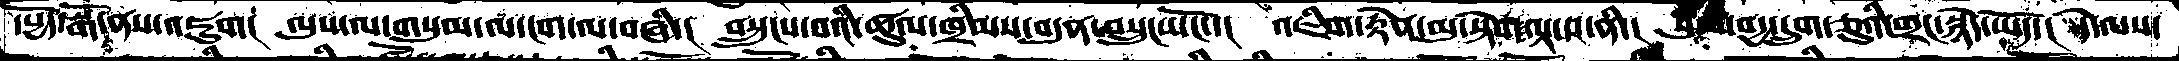དཔྱོད་སྒོ་ནས་འཇུག།  ལུས་ལ་གསུམ་ལ་ངག་ལ་བཞི་།  བསྲུངས་བའི་ཚུལ་ཁྲིམས་བདུན་བསྲུང་སངོ་་།  འཇིག་རྟེན་མུ་སྟེག་ལྟ་བ་ནི་།  སུམ་བདྱ་དྲུག་ཅུའི་གྲང་སྙེད་ཡོད་།  དེ་ལས་
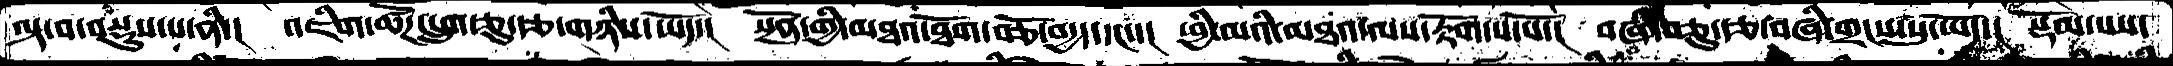ལྟ་བ་བསྡུས་པ་ནི་།  འཇིག་ཚོཌ་དྲུག་ཅུ་རྩ་གཉིས་ཡོད་།  སྔོན་གྱི་མཐའ་ཐོག་བཅོ་བདྱད་དང་་།  ཕྱི་མའི་མཐའ་ལས་རྟོག་པ་པོ་།  བཞི་བཅུ་རྩ་བཞི་གྲངས་སུ་ཡོད་།  སྡོམ་པས་
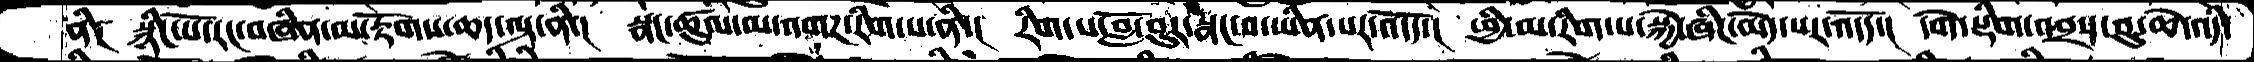ནི།  སྙིང་པོ་རང་བཞིན་མ་རྟོགས་ཆད་ལྟ་ནི་།  སྣང་ཚུལ་མ་འགཌ་རིག་པ་ནི་།  རིག་པ་བློ་བུར་སྣང་བ་ཡིན་པར་འདོད་།  ཕྱི་མ་རིག་པ་སྐྱེ་ཞིང་མེད་པར་འདོད་།  དགེ་སྡུག་འབྲས་བུ་ཆེ་འདི་
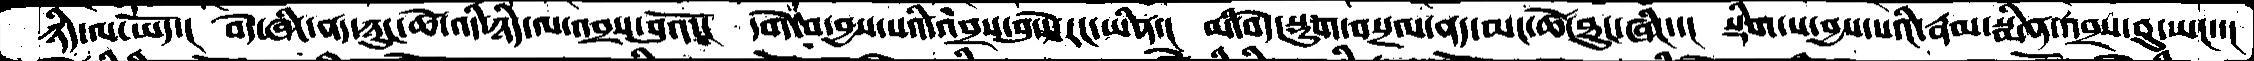ཉིད་ལ་ཡོད་།  བདེ་ཞིང་ནད་ཉུང་ཚེ་འདི་ཉིད་ལ་འབྲས་བུའོ་།  དགེ་བ་བྱས་པའི་འབྲས་བུ་དེ་རང་ཡིན་།  མི་བདེ་སྡུག་བསྔལ་ནད་མང་ཚེ་ཐུངཞིང་་།  སྡིག་པ་བྱས་པའི་རྣམ་སྨིན་འབྲས་བུ་ཡང་་།
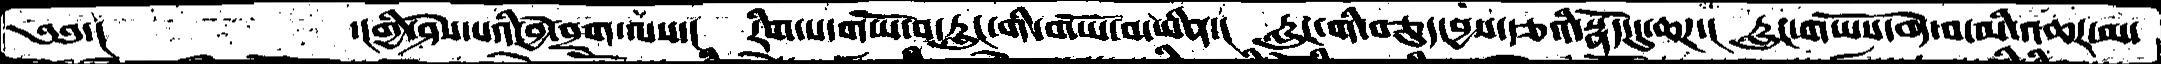༄༅་།      ་།གྱི་ཤེས་པའི་བྱེ་བྲག་ལས་།  རིག་པ་གཡོ་བ་རླུང་གི་གཡོ་བ་ཡིན་།  རླུང་གི་བཅུད་བྱས་རྩའི་སྣོད་དུ་ཆཌ་།  རླུང་གཡོས་བདེ་བ་མི་འཆར་མ་
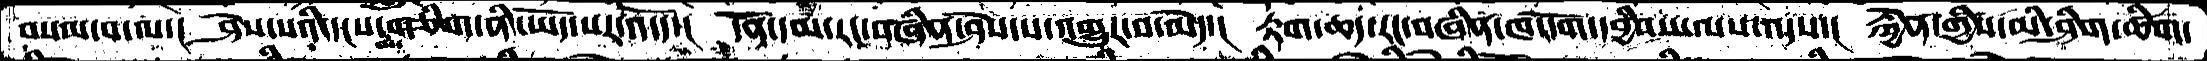བསལ་བ་ལ་།  ཤེས་པའི་དངས་མ་གཅིག་ནི་ཡོད་པར་འདོད་།  དོན་དམ་རང་བཞིན་ཤེས་པ་འགྱུར་བ་མེད་།  རྟག་ཆད་རང་བཞིན་ཁ་དོག་དབྱིབས་ལས་འདས་།  རྐྱེན་གྱིས་མི་ཤིག་ཚིག་
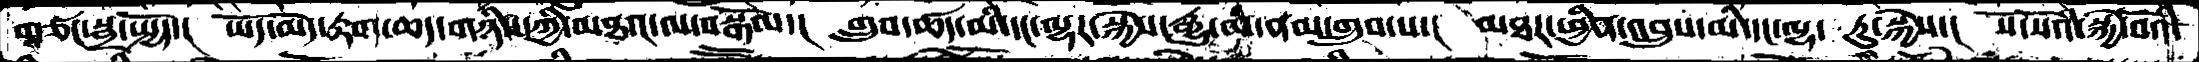གཙང་སྦྲ་སྤྱོད་།  ཡོད་མེད་རྟག་ཆད་གཉིས་ཀྱི་མཐའ་ལ་བསྒོམ་།  གྲུབ་ཚད་མི་དང་ལྷར་སྐྱེས་རྒྱུ་མ་ནམ་གྲུབ་པ་།  མཐར་ཕྱིན་འབྲུས་མི་དང་ལྷ་ རུ་སྐྱེས་།  སོ་སོའི་སྐྱེ་བོའི་
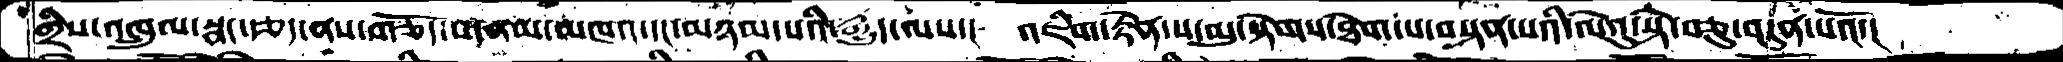གྲིས་འཁྲུལ་སྣང་རྩད་ནས་གཅོད་པ་ནམ་མཁའ་དང་མཉམ་པའི་རྒྱུད་ལས་།  འཇིག་རྟེན་པ་མུ་སྟེགས་ཐེག་པ་བསྟན་པའི་ལེའུ་སྟེ་བཅུ་བདུན་པའོ་།
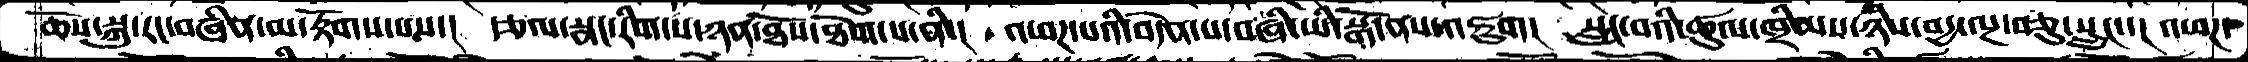ཆོས་སྐུ་རང་བཞིན་མ་རྟོགས་པས་།  རྩལ་སྣང་རིག་པ་ཉན་ཐོས་ཐེག་པ་ནི་།  འཕཌ་པའི་བདེན་པ་བཞི་ཡི་སྒོ་ནས་འཇུག།  སྲུང་བའི་ཚུལ་ཁྲིམས་ཉིས་བདྱ་ལྔ་བཅུ་སྲུང་་།  འཕཌ་
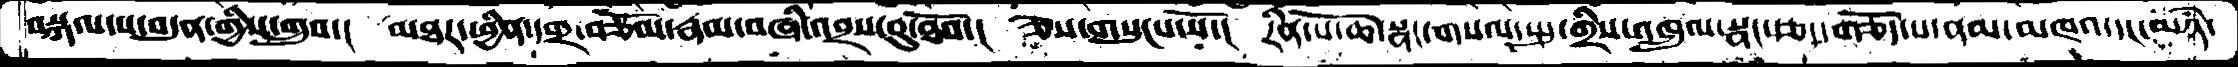བསྐལ་པ་བདུན་གྱིས་གྲུབ་།  མཐར་ཕྱིན་དགྲ་བཅོམ་རྣམ་བཞི་འབྲས་བུ་ཐོབ་།  ཅེས་གསུངས་སོ་།  རིན་པོ་ཆེ་སྣང་གསལ་སྤུ་གྲིས་འཁྲུལ་སྣང་རྩད་གཅོད་པ་ནམ་མཁའ་དང་མཉཾ་
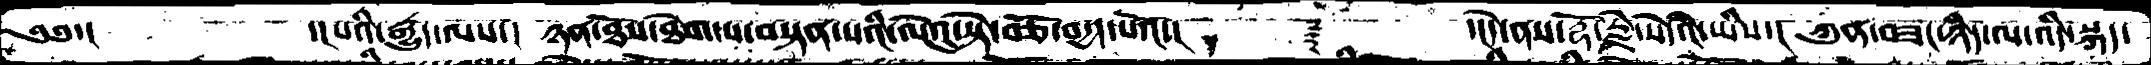༄༅་།       ་།པའི་རྒྱུད་ལས་།  ཉན་ཐོས་་ཐེག་པ་བསྟན་པའི་ལེའུ་སྟེ་བཅོ་བདྱད་པའོ་།     ࿑    ་།དེ་ནས་རྡོ་རྗེ་སེདཾའ་ཡིས་།  ཀུན་བཟང་ཉིད་ལ་འདི་སྐད་
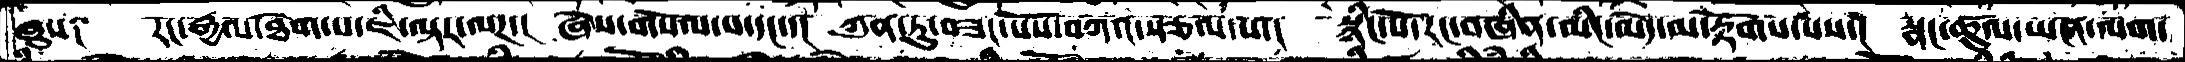ཞུས༑  རང་རྒྱལ་ཐེག་པ་ཇི་ལྟར་ལཌ་།  ཞེས་གསོལ་པ་དང་་།  ཀུན་ཏུ་བཟང་པོས་བཀའ་སྩལ་པ་།  སྙིང་པོ་རང་བཞིན་མིང་མེད་མ་རྟོགས་པས་།  སྣང་ཚུལ་ཡན་ལག་
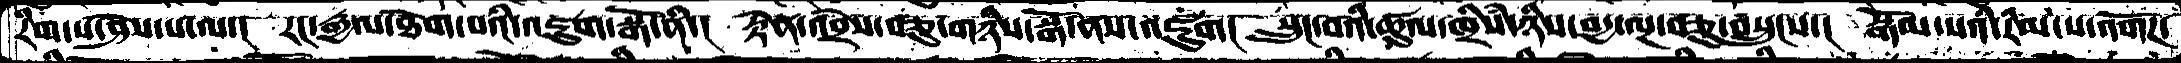རིག་པ་ཤེས་པ་ལ་།  རང་རྒྱལ་ཐེག་པའི་འཇུག་སྒོ་ནི་།  རྟེན་འབྲེལ་བཅུ་གཉིས་སྒོ་ནས་འཇུག།  སྲུང་བའི་ཚུལ་ཁྲིསཾ་ཉིས་བདྱ་ལྔ་བཅུ་བསྲུངས་།  སྒོམ་པའི་རིམ་པ་འགོཌ་
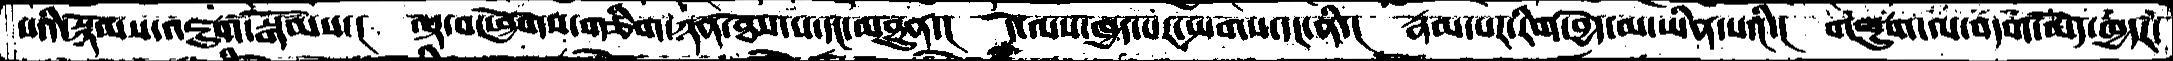པའི་སྙོམས་འཇུག་སྒོམས་།  ལྟ་བ་ཕྱོགས་གཅིག་ཉན་ཐོས་པ་དང་མཐུན་།  དེ་ལས་ཁྱད་པར་སྤགས་དང་ནི་།  རྣམ་པར་རིག་བྱེད་མ་ཡིན་པའི་།  གཞུག་ལ་བདག་མེད་ཁྱདར་
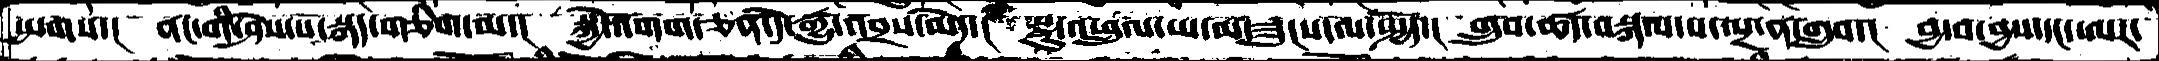སྤགས་།  ནང་གི་ཤེས་པ་སྐད་གཅིག་མ་།  སྐྱེ་འགག་ཅན་དེ་རྒྱུ་འབྲས་མེད་།  སྫུ་འཕྲུལ་ཡ་མ་ཟུངས་ལ་སྤྱོད་།  གྲུབ་ཚད་བསྐལ་པ་ལྔ་ན་གྲུབ་།  བྱ་བ་བྱས་དང་ཨར་
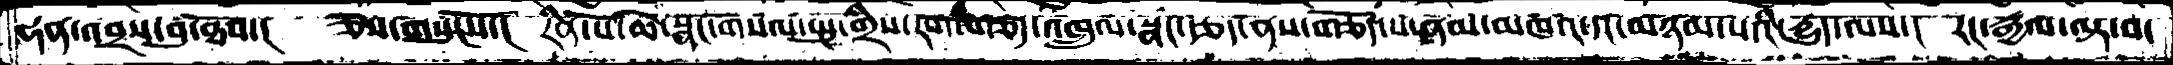ཧན་འབྲས་བུ་ཐོབ་།  ཅེས་གསུངསོ་།  རིན་པོ་ཆེ་སྣང་གསལ་སྤུ་གྲིས་རིག་བརྩད་འཁྲུལ་སྣང་རྩད་ནས་གཅོད་པ་ནམ་མཁའ་དང་མཉམ་པའི་རྒྱུད་ལས་།  རང་རྒྱལ་ལྟ་བ་
